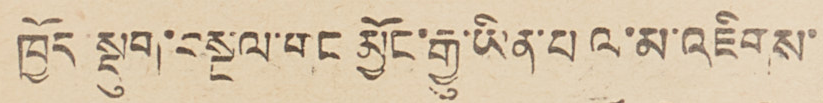ཁྱོད སྡུག་བསྔལ་གང མྱོང་རྒྱུ་ཡིན་པ ལ་མ་འཇིགས་
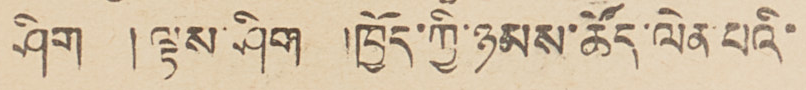ཤིག    ། ལྟས་ཤིག  །ཁྱོད་ཀྱི་ཉམས་ཚོད་ལེན་པའི་
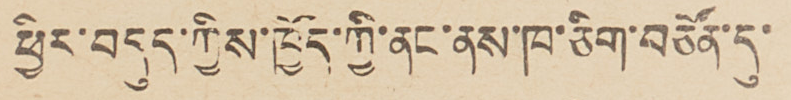ཕྱིར་བདུད་ཀྱིས་ཁྱོད་ཀྱི་ནང་ནས་ཁ་ཅིག་བཙོན་དུ་
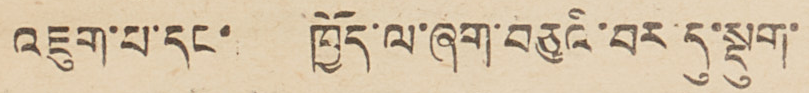འཇུག་པ་དང་   ཁྱོད་ལ་ཞག་བཅུའི་བར་དུ་སྡུག་
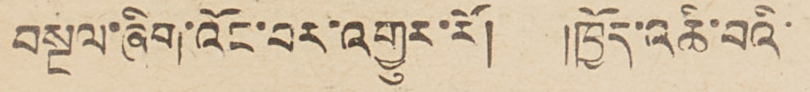བསྔལ་ཞིག་འོང་བར་འགྱུར་རོ།    །ཁྱོད་འཆི་བའི་
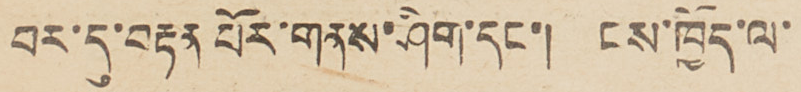བར་དུ་བརྟན པོར་གནས་ཤིག་དང་།  ངས་ཁྱོད་ལ་
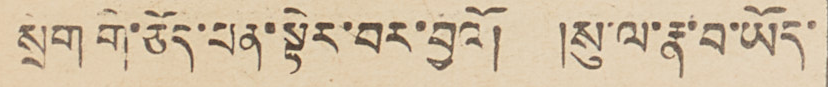སྲོག་གི་ཅོད་པན་སྟེར་བར་བྱའོ།   །སུ་ལ་རྣ་བ་ཡོད་
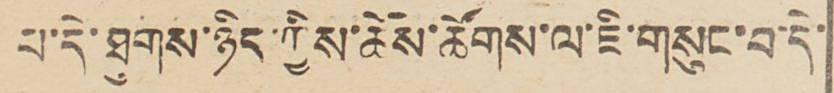པ་དེ་ཐུགས་ཉིད་ཀྱིས་ཆོས་ཚོགས་ལ་ཇི་གསུང་བ་དེ་
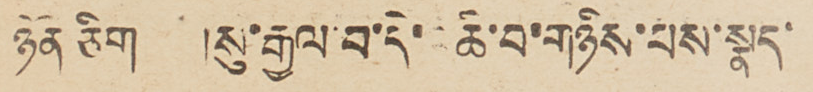ཉོན་ཅིག   །སུ་རྒྱལ་བ་དེ་འཆི་བ་གཉིས་པས་སྣད་
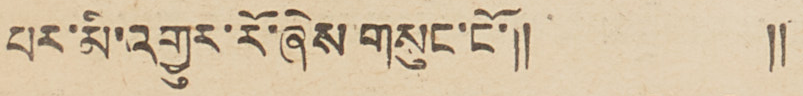པར་མི་འགྱུར་རོ་ཞེས་གསུང་ངོ་།།              །།
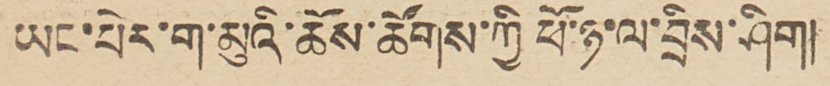ཡང་པེར་ག་མུའི་ཆོས་ཚོགས་ཀྱི ཕོ་ཉ་ལ་བྲིས་ཤིག།
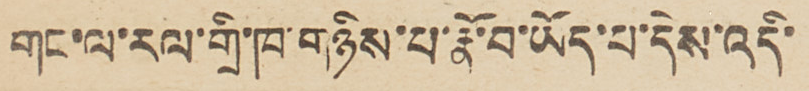གང་ལ་རལ་གྲི་ཁ་གཉིས་པ་རྣོ་བ་ཡོད་པ་དེས་འདི་
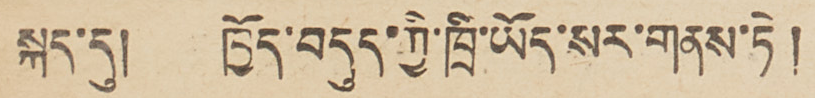སྐད་དུ།   ཁྱོད་བདུད་ཀྱི་ཁྲི་ཡོད་སར་གནས་ཏེ །
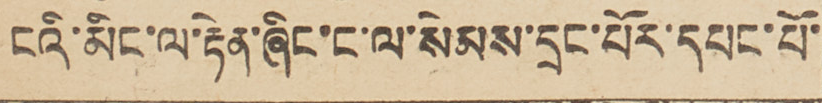ངའི་མིང་ལ་རྟེན་ཞིང་ང་ལ་སེམས་དྲང་པོར་དཔང་པོ་
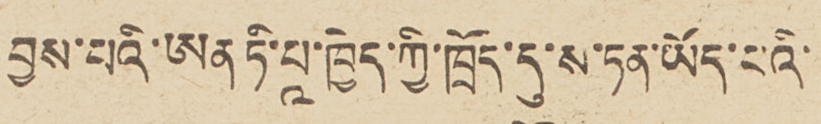བྱས་པའི་ཨན ཏི་པཱ་ཁྱེད་ཀྱི་ཁྲོད་དུ་ས་ཏན་ཡོད་པའི་
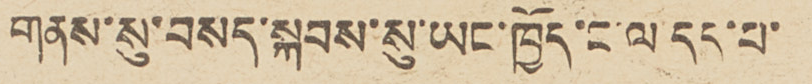གནས་སུ་བསད་སྐབས་སུ་ཡང་ཁྱོད་ང་ལ་དད་པ་
